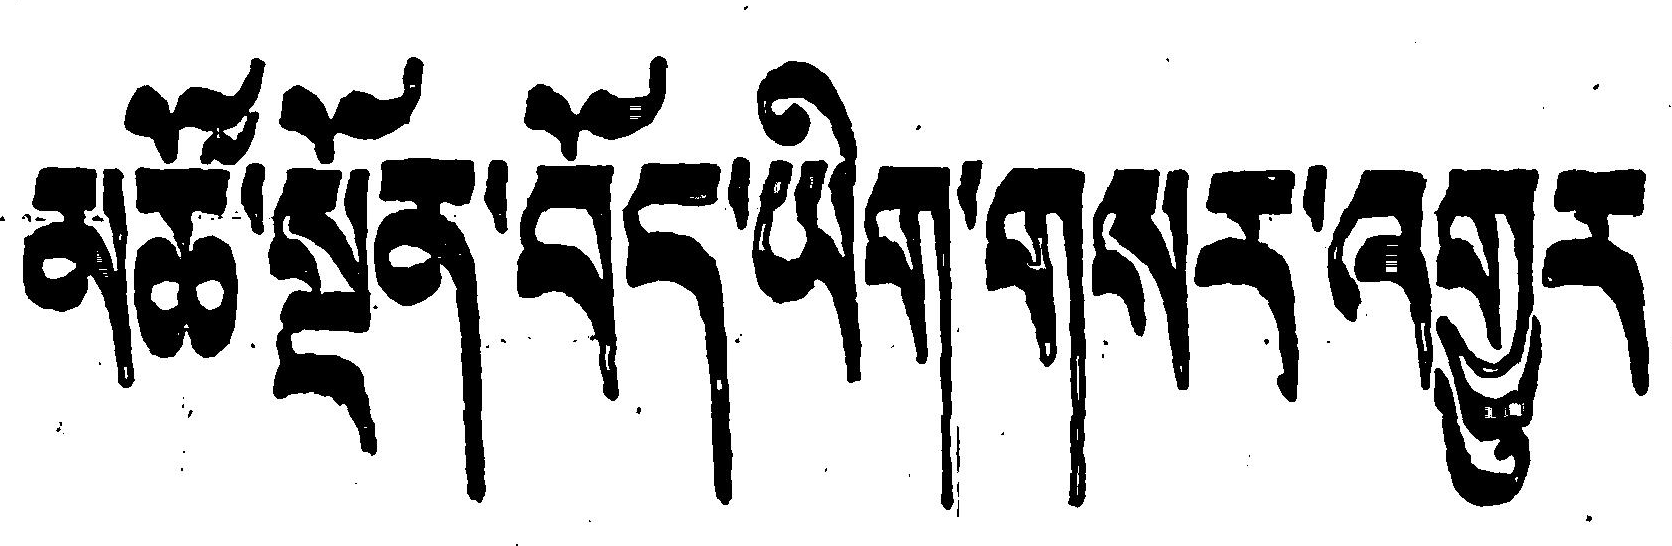མཚོ་སྔོན་བོད་ཡིག་གསར་འགྱུར
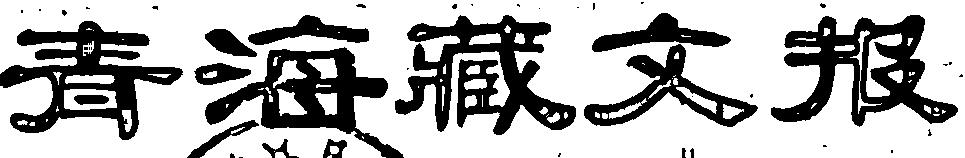青海藏文报
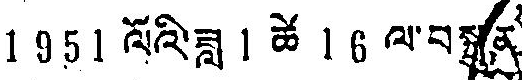1951 ལོའི་ཟླ 1 ཚེ 16 ལ་བསྒྲུན་
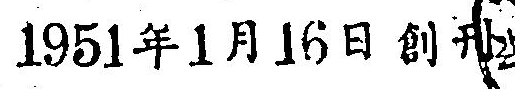1951年1月16日創刊
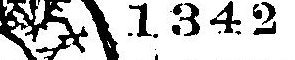སད 1342
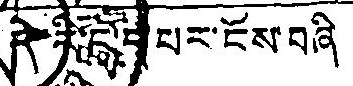དེ་རིང་དཔར་ངོས་བཞི
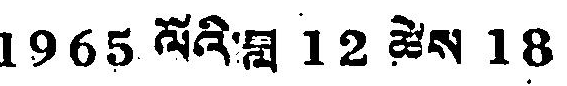1965 ལོའི་ཟླ 12 ཚེས 18
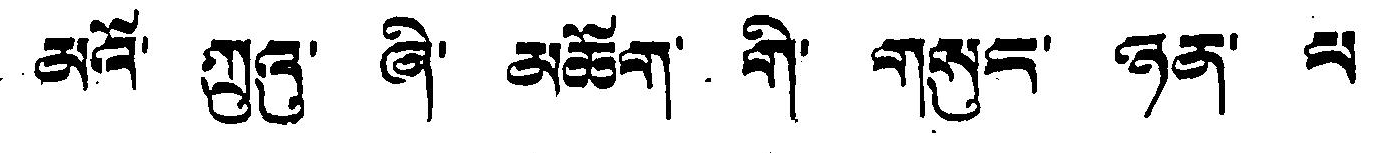མའོ་ ཀྲུའུ་ ཞི་ མཆོག་ གི་ གསུང་ ཉན་ པ
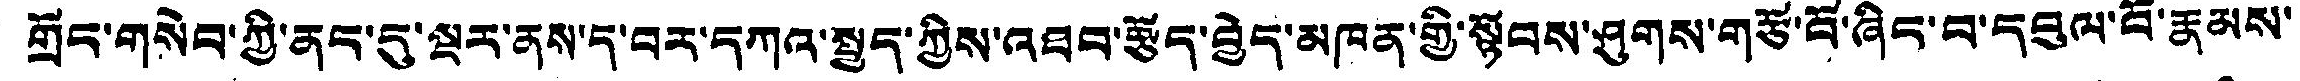གྲང་གསེབ་ཀྱི་ནང་དུ་ལྔར་ནས་ད་བར་དཀའ་སྤུད་ཀྱིས་འཐབ་རྩོད་བྱེད་མཁན་གྱི་སྟོབས་ཤུགས་གཙོ་བོ་ཞིང་བ་དབུལ་བོ་རྣམས་
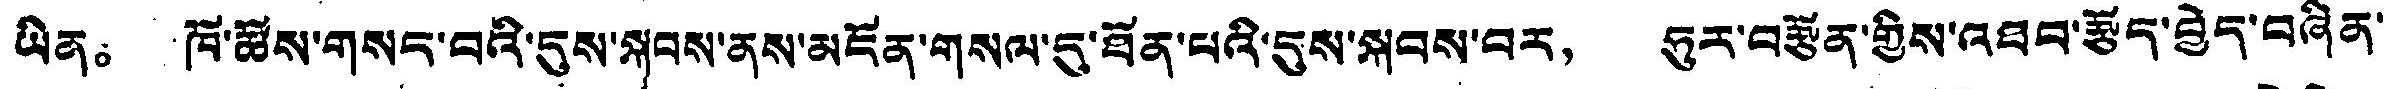ཡིན。 ཁོ་ཚོས་གསང་བའི་དུས་སྐབས་ནས་མངོན་གསལ་དུ་ཐོན་པའི་དུས་སྐབས་བར， ཧུར་བརྩོན་གྱིས་འཐབ་རྩོད་བྱེད་བཞིན་
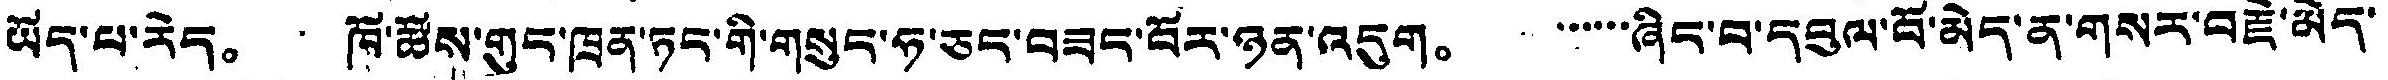ཡོད་པ་རེད。 ཁོ་ཚོས་གུང་ཁྲན་ཏང་གི་གསུད་ཧ་ཅང་བཟང་བོར་ཉན་འདུག。 ་་་་་་ཞིང་བ་དབུལ་པོ་མེད་ན་གསར་བརྗེ་མེད
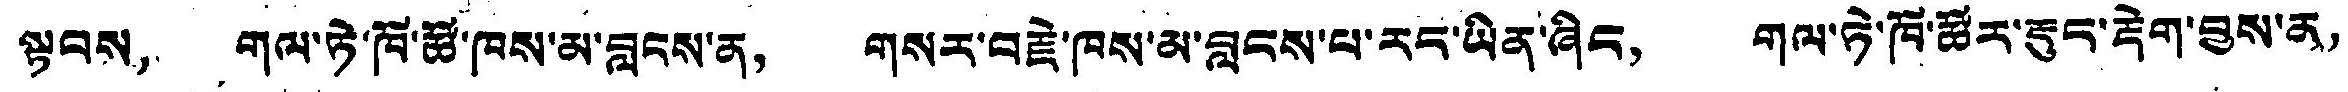ལྟབས， གལ་ཏེ་ཁོ་ཚོ་ཁས་མ་བླངས་ན， གསར་བརྗེ་ཁས་མ་བླངས་ལ་རང་ཡིན་ཞིང， གལ་ཏེ་ཁོ་ཚོར་རྡུང་རྡེག་བྱས་ན，
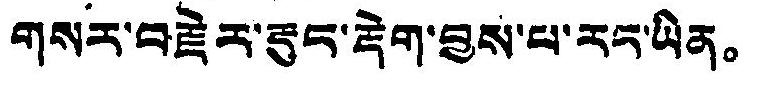གསར་བརྗེར་རྡུང་རྡེག་བྱས་པ་རང་ཡིན。
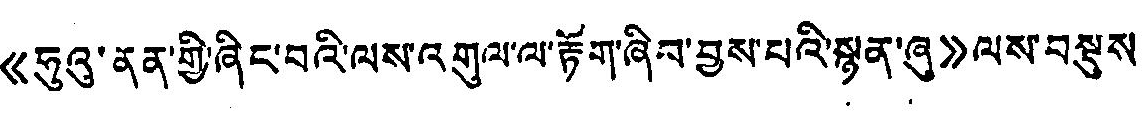《ཧུའུ་ནན་གྱི་ཞིང་བའི་ལས་འགུལ་ལ་རྟོག་ཞིབ་བྱས་པའི་སྙན་ཞུ》ལས་བསྡུས
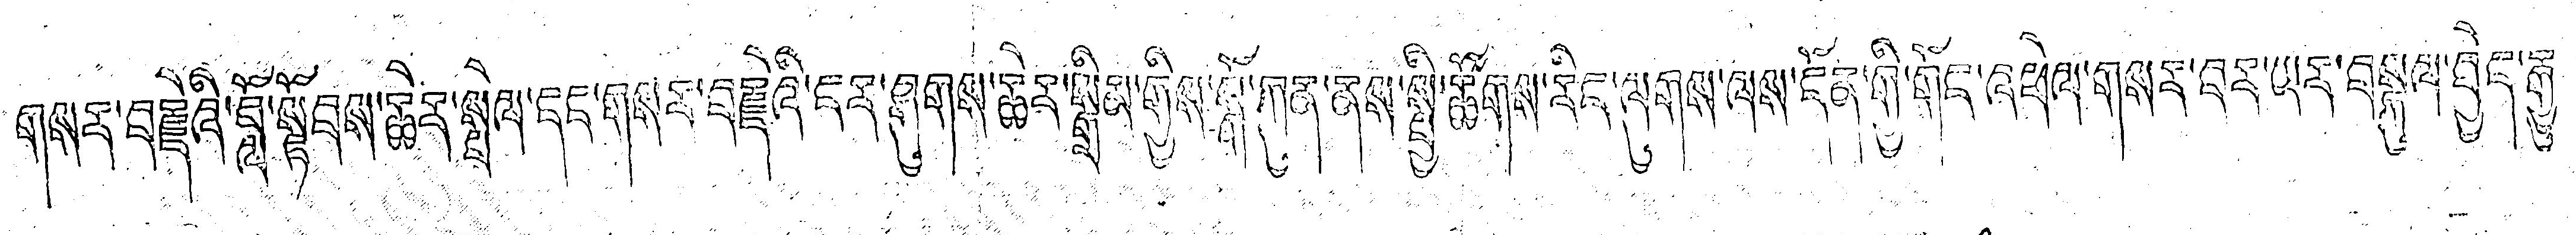གསར་བརྗེའི་བློ་སྟོབས་ཆེར་སྤེལ་དང་གསར་བརྗེའི་ངར་ཞུགས་ཆེར་སྒྲིམ་གྱིས་སྒོ་ཀོན་ནས་སྤྱི་ཚོགས་རིང་ལུགས་ལས་དོན་གྱི་གོང་འཕེལ་གསར་བར་ཡར་བསྐུལ་བྱེད་རྒྱུ
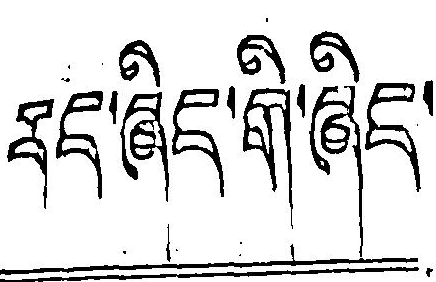རང་ཞིང་གི་ཞིང་
